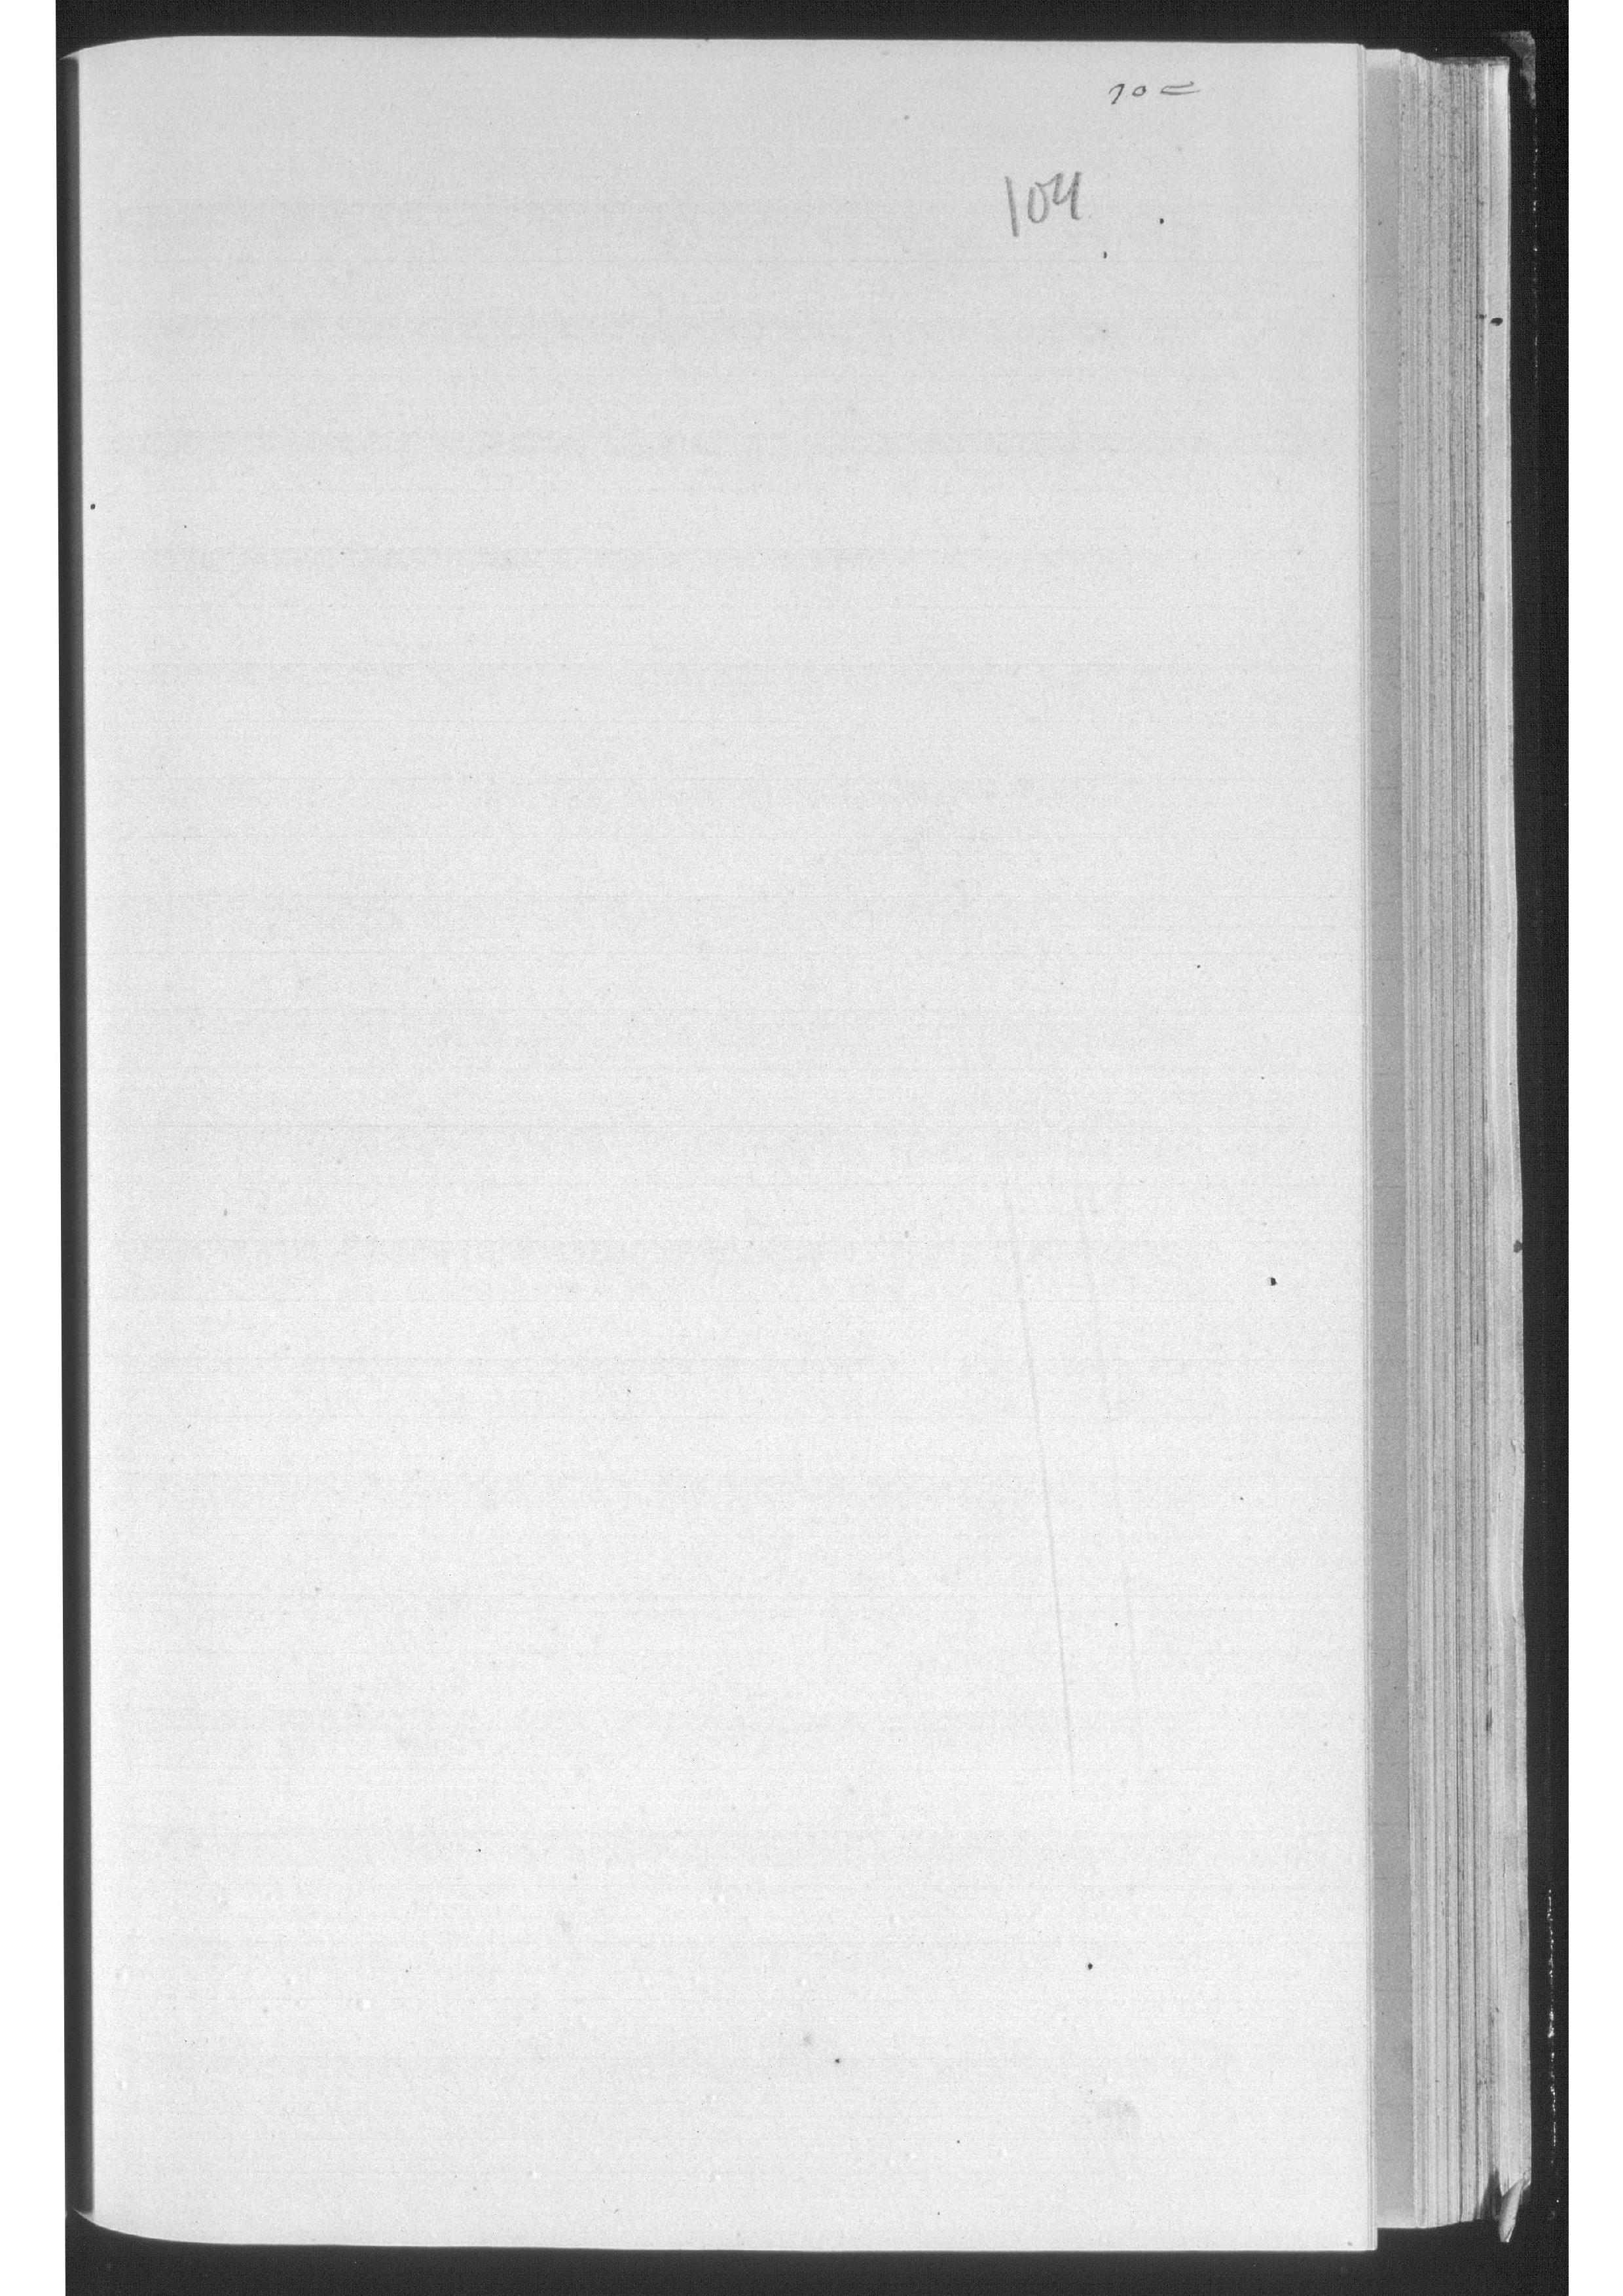༡༠༤
